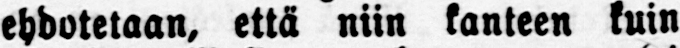ehdotetaan, että niin kanteen kuin
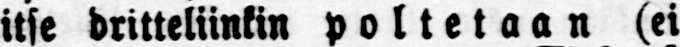itse dritteliinkin poltetaan (ei
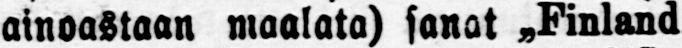ainoastaan maalata) sanat „Finland
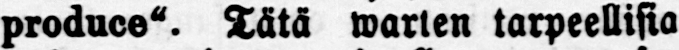produce". Tätä warten tarpeellisia
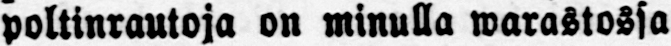poltinrautoja on minulla warastossa
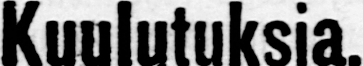Kuulutuksia.
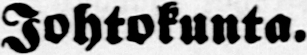Johtokunta.
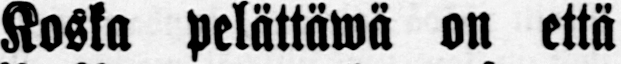Koska pelättäwä on että
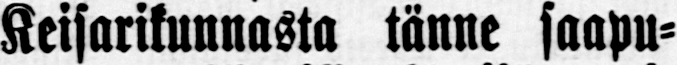Keisarikunnasta tänne saapu-
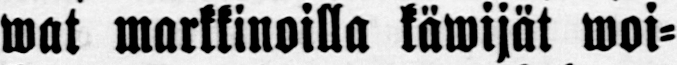wat markkinoilla käwijät woi-
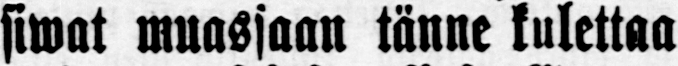siwat muassaan tänne kulettaa
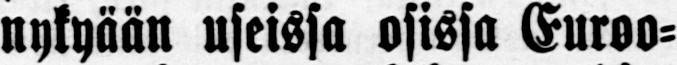nykyään useissa osissa Euroo-
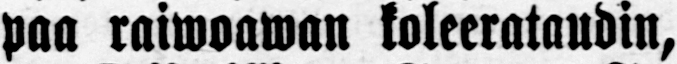paa raiwoawan koleerataudin,
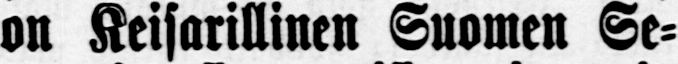on Keisarillinen Suomen Se-
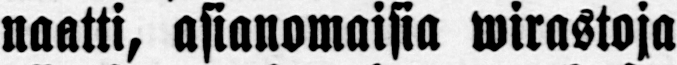naatti, asianomaisia wirastoja
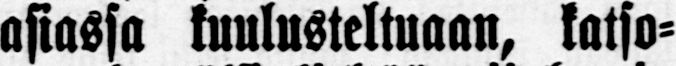asiassa kuulusteltuaan, katso-
